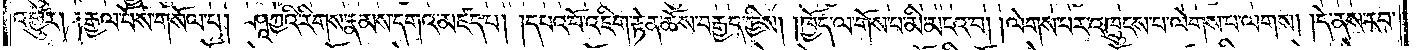འགྱུར། །རྒྱལ་པོས་གསོལ་པ། ཤཱཀྱའི་རིགས་རྣམས་དགའ་མཛད་པ། །དཔའ་བོ་འཇིག་རྟེན་ཆོས་བརྒྱད་ཀྱིས། །ཁྱོད་ལ་གོས་པ་མི་མངའ་བ། །ལེགས་པར་འཁྲུངས་པ་ལེགས་པ་ལགས། །དེ་ནས་རབ་
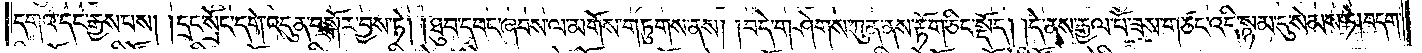དགའ་དང་རྒྱས་པས། །དྲང་སྲོང་དགེ་འདུན་བསྐོར་བྱས་ཏེ། །ཐུབ་དབང་ཞབས་ལ་མགོས་གཏུགས་ནས། །བདེ་གཤེགས་ཀུན་ནས་རྟོག་ཅིང་སྡོད། །དེ་ནས་རྒྱལ་པོ་ཟས་གཙང་འདི་སྙམ་དུ་སེམས་ཏེ། བདག་
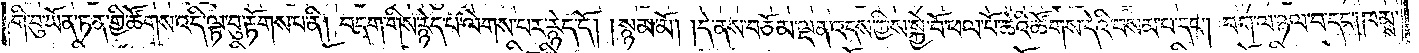གི་བུ་ཡོན་ཏན་གྱི་ཚོགས་འདི་ལྟ་བུ་རྟོགས་པ་ནི། བདག་གིས་རྙེད་པ་ལེགས་པར་རྙེད་དོ། །སྙམ་མོ། །དེ་ནས་བཅོམ་ལྡན་འདས་ཀྱིས་སྐྱེ་བོ་ཕལ་པོ་ཆེའི་ཚོགས་དེའི་བསམ་པ་དང༌། བག་ལ་ཉལ་བ་དང༌། ཁམས་
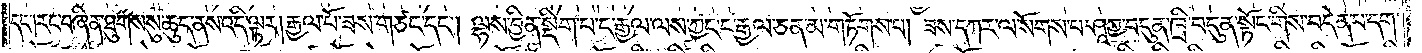དང༌། རང་བཞིན་ཐུགས་སུ་ཆུད་ནས་འདི་ལྟར། རྒྱལ་པོ་ཟས་གཙང་དང༌། ལྷས་བྱིན་སྡིག་པ་ང་རྒྱལ་ལས་ཀྱང་ང་རྒྱལ་ཅན་མ་གཏོགས་པ། ཟས་དཀར་ལ་སོགས་པ་ཤཱཀྱ་བདུན་ཁྲི་བདུན་སྟོང་གིས་བདེན་པ་དག་
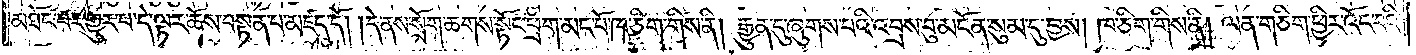མཐོང་བར་གྱུར་པ་དེ་ལྟར་ཆོས་བསྟན་པ་མཛད་དོ། །དེ་ནས་སྲོག་ཆགས་སྟོང་ཕྲག་མང་པོ་ཁ་ཅིག་གིས་ནི། རྒྱུན་དུ་ཞུགས་པའི་འབྲས་བུ་མངོན་སུམ་དུ་བྱས། ཁ་ཅིག་གིས་ནི། ལན་གཅིག་ཕྱིར་འོང་བའི་
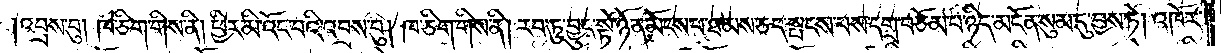འབྲས་བུ། ཁ་ཅིག་གིས་ནི། ཕྱིར་མི་འོང་བའི་འབྲས་སྦུ། ཁ་ཅིག་གིས་ནི། རབ་ཏུ་བྱུང་སྟེ་ཉོན་མོངས་པ་ཐམས་ཅད་སྤངས་པས་དགྲ་བཅོམ་པ་ཉིད་མངོན་སུམ་དུ་བྱས་ཏེ། འཁོར་
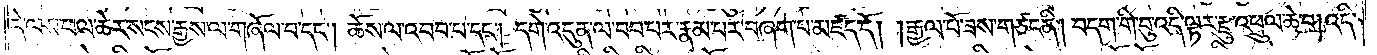དེ་ལས་ཕལ་ཆེར་སངས་རྒྱས་ལ་གཞོལ་བ་དང༌། ཆོས་ལ་འབབ་པ་དང༌། དགེ་འདུན་ལ་བབ་པར་རྣམ་པར་བཞག་པ་མཛད་དོ། །རྒྱལ་པོ་ཟས་གཙང་ནི། བདག་གི་བུ་འདི་ལྟར་རྫུ་འཕྲུལ་ཆེ་བ། འདི་
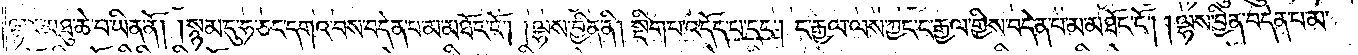ལྟར་མཐུ་ཆེ་བ་ཡིན་ནོ། །སྙམ་དུ་ཧ་ཅང་དགའ་བས་བདེན་པ་མ་མཐོང་ངོ༌། །ལྷས་བྱིན་ནི། སྡིག་པ་འདོད་པ་དང༌། ང་རྒྱལ་ལས་ཀྱང་ང་རྒྱལ་གྱིས་བདེན་པ་མ་མཐོང་ངོ༌། །ལྷས་བྱིན་བདེན་པ་མ་
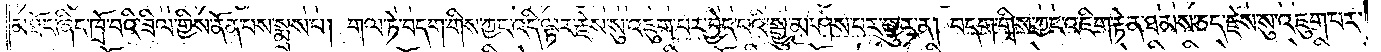མཐོང་ཞིང་ཁྲོ་བའི་ཟིལ་གྱིས་ནོན་པས་སྨྲས་པ། གལ་ཏེ་བདག་གིས་ཀྱང་འདི་ལྟར་རྗེས་སུ་འཇུག་པར་བྱེད་པའི་སྒྱུ་མ་ཤེས་པར་གྱུར་ན། བདག་གིས་ཀྱང་འཇིག་རྟེན་ཐམས་ཅད་རྗེས་སུ་འཇུག་པར་
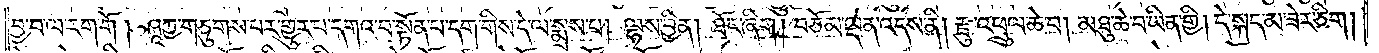བྱ་བ་ལ་རག་གོ །ཤཱཀྱ་གཅུགས་པར་གྱུར་པ་དགའ་བ་སྟོན་པ་དག་གིས་དེ་ལ་སྨྲས་པ། ལྷས་བྱིན། ཐོང་ཞིག །བཅོམ་ལྡན་འདས་ནི། རྫུ་འཕྲུལ་ཆེ་བ། མཐུ་ཆེ་བ་ཡིན་གྱི། དེ་སྐད་མ་ཟེར་ཅིག།
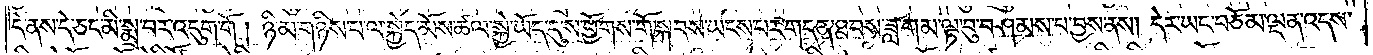དེ་ནས་དེ་ཅང་མི་སྨྲ་བར་འདུག་གོ །ཉི་མ་གཉིས་པ་ལ་སྐྱེད་མོས་ཚལ་སྐྱེ་ཡོད་དུ་ས་ཕྱོགས་གོ་སྐབས་ཡངས་པར་གདན་ཐབས་ཟླ་གམ་ལྟ་བུ་བཤམས་པ་བྱས་ནས། དེར་ཡང་བཅོམ་ལྡན་འདས་
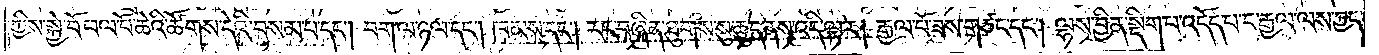ཀྱིས་སྐྱེ་བོ་ཕལ་པོ་ཆེའི་ཚོགས་དེའི་བསམ་པ་དང༌། བག་ལ་ཉལ་དང༌། ཁམས་དང༌། རང་བཞིན་ཐུགས་སུ་ཆུད་ནས་འདི་ལྟར། རྒྱལ་པོ་ཟས་གཙང་དང༌། ལྷས་བྱིན་སྡིག་པ་འདོད་པ་ང་རྒྱལ་ལས་ཀྱང་
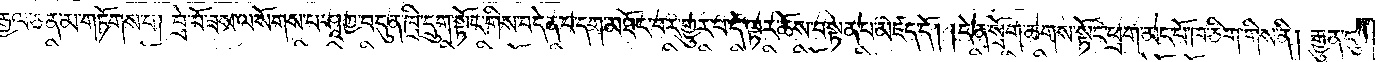ང་རྒྱལ་ཅན་མ་གཏོགས་པ། བྲེ་བོ་ཟས་ལ་སོགས་པ་ཤཱཀྱ་བདུན་ཁྲི་དྲུག་སྟོང་གིས་བདེན་པ་དག་མཐོང་བར་གྱུར་པ་དེ་ལྟར་ཆོས་བསྟན་པ་མཛད་དོ། །དེ་ན་སྲོག་ཆགས་སྟོང་ཕྲག་མང་པོ། ཁ་ཅིག་གིས་ནི། རྒྱུན་དུ་
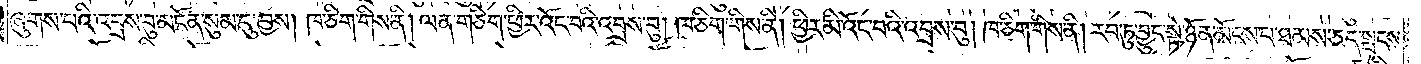ཞུགས་པའི་འབྲས་བུ་མངོན་སུམ་དུ་བྱས། ཁ་ཅིག་གིས་ནི། ལན་གཅིག་ཕྱིར་འོང་བའི་འབྲས་བུ། ཁ་ཅིག་གིས་ནི། ཕྱིར་མི་འོང་བའི་འབྲས་བུ། ཁ་ཅིག་གིས་ནི། རབ་ཏུ་བྱུང་སྟེ་ཉོན་མོངས་པ་ཐམས་ཅད་སྤངས་
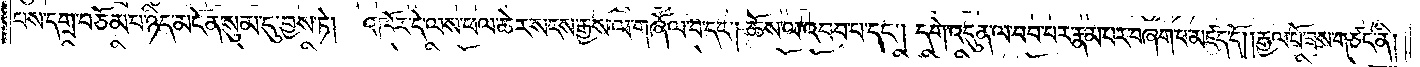པས་དགྲ་བཅོམ་པ་ཉིད་མངོན་སུམ་དུ་བྱས་ཏེ། འཁོར་དེ་ལས་ཕལ་ཆེར་སངས་རྒྱས་ལ་གཞོལ་བ་དང༌། ཆོས་ལ་འབབ་པ་དང༌། དགེ་འདུན་ལ་བབ་པར་རྣམ་པར་བཞག་པ་མཛད་དོ། །རྒྱལ་པོ་ཟས་གཙང་ནི།
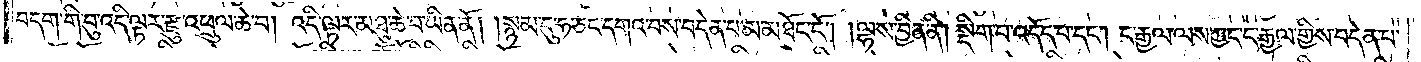བདག་གི་བུ་འདི་ལྟར་རྫུ་འཕྲུལ་ཆེ་བ། འདི་ལྟར་མཐུ་ཆེ་བ་ཡིན་ནོ། །སྙམ་དུ་ཧ་ཅང་དགའ་བས་བདེན་པ་མ་མཐོང་ངོ༌། །ལྷས་བྱིན་ནི། སྡིག་པ་འདོད་པ་དང༌། ང་རྒྱལ་ལས་ཀྱང་ང་རྒྱལ་གྱིས་བདེན་པ་
